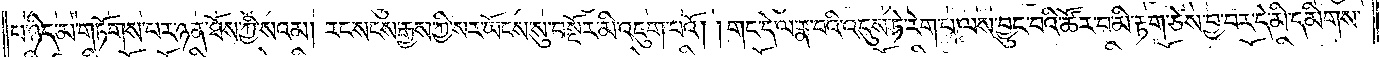པ་ཉིད་མ་གཏོགས་པར་ཉན་ཐོས་ཀྱི་སའམ། རང་སངས་རྒྱས་ཀྱི་སར་ཡོངས་སུ་བསྔོར་མི་འཇུག་པའོ། །གང་དེ་ལ་རྣ་བའི་འདུས་ཏེ་རེག་པ་ལས་བྱུང་བའི་ཚོར་བ་མི་རྟག་ཅེས་བྱ་བར་དེ་མི་དམིགས་
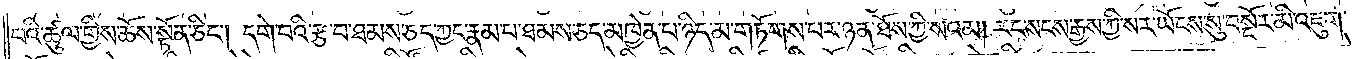པའི་ཚུལ་གྱིས་ཆོས་སྟོན་ཅིང༌། དགེ་བའི་རྩ་བ་ཐམས་ཅད་ཀྱང་རྣམ་པ་ཐམས་ཅད་མཁྱེན་པ་ཉིད་མ་གཏོགས་པར་ཉན་ཐོས་ཀྱི་སའམ། རང་སངས་རྒྱས་ཀྱི་སར་ཡོངས་སུ་བསྔོར་མི་འཇུག་
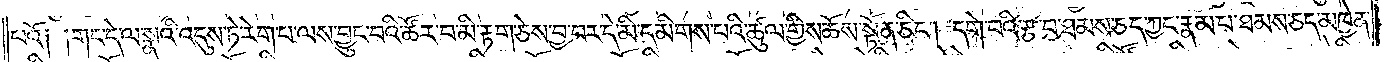པའོ༑ ༑གང་དེ་ལ་སྣའི་འདུས་ཏེ་རེག་པ་ལས་བྱུང་བའི་ཚོར་བ་མི་རྟག་ཅེས་བྱ་བར་དེ་མི་དམིགས་པའི་ཚུལ་གྱིས་ཆོས་སྟོན་ཅིང༌། དགེ་བའི་རྩ་བ་ཐམས་ཅད་ཀྱང་རྣམ་པ་ཐམས་ཅད་མཁྱེན
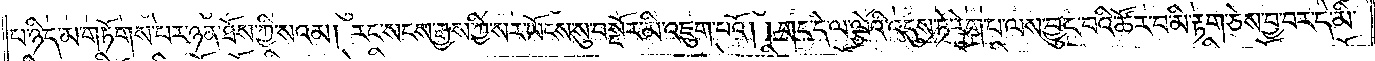པ་ཉིད་མ་གཏོགས་པར་ཉན་ཐོས་ཀྱི་སའམ། རང་སངས་རྒྱས་ཀྱི་སར་ཡོངས་སུ་བསྔོར་མི་འཇུག་པའོ། །གང་དེ་ལ་ལྕེའི་འདུས་ཏེ་རེག་པ་ལས་བྱུང་བའི་ཚོར་བ་མི་རྟག་ཅེས་བྱ་བར་དེ་མི་
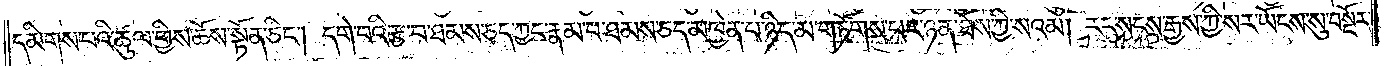དམིགས་པའི་ཚུལ་གྱིས་ཆོས་སྟོན་ཅིང༌། དགེ་བའི་རྩ་བ་ཐམས་ཅད་ཀྱང་རྣམ་པ་ཐམས་ཅད་མཁྱེན་པ་ཉིད་མ་གཏོགས་པར་ཉན་ཐོས་ཀྱི་སའམ། རང་སངས་རྒྱས་ཀྱི་སར་ཡོངས་སུ་བསྔོར་
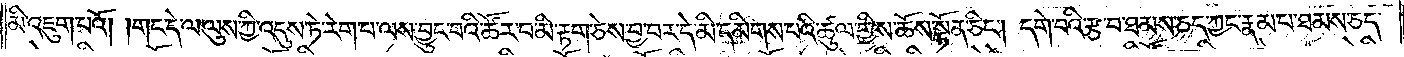མི་འཇུག་པའོ། །གང་དེ་ལ་ལུས་ཀྱི་འདུས་ཏེ་རེག་པ་ལས་བྱུང་བའི་ཚོར་བ་མི་རྟག་ཅེས་བྱ་བར་དེ་མི་དམིགས་པའི་ཚུལ་གྱིས་ཆོས་སྟོན་ཅིང༌། དགེ་བའི་རྩ་བ་ཐམས་ཅད་ཀྱང་རྣམ་པ་ཐམས་ཅད་
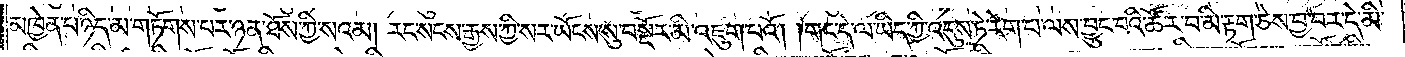མཁྱེན་པ་ཉིད་མ་གཏོགས་པར་ཉན་ཐོས་ཀྱི་སའམ། རང་སངས་རྒྱས་ཀྱི་སར་ཡོངས་སུ་བསྔོར་མི་འཇུག་པའོ། །གང་དེ་ལ་ཡིད་ཀྱི་འདུས་ཏེ་རེག་པ་ལས་བྱུང་བའི་ཚོར་བ་མི་རྟག་ཅེས་བྱ་བར་དེ་མི་
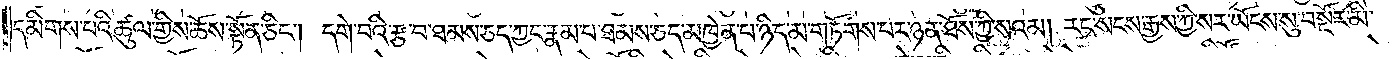དམིགས་པའི་ཚུལ་གྱིས་ཆོས་སྟོན་ཅིང༌། དགེ་བའི་རྩ་བ་ཐམས་ཅད་ཀྱང་རྣམ་པ་ཐམས་ཅད་མཁྱེན་པ་ཉིད་མ་གཏོགས་པར་ཉན་ཐོས་ཀྱི་སའམ། རང་སངས་རྒྱས་ཀྱི་སར་ཡོངས་སུ་བསྔོར་མི་
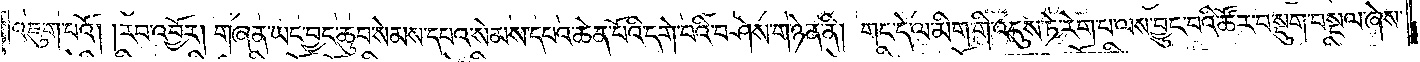འཇུག་པའོ། །རབ་འབྱོར། གཞན་ཡང་བྱང་ཆུབ་སེམས་དཔའ་སེམས་དཔའ་ཆེན་པོའི་དགེ་བའི་བཤེས་གཉེན་ནི། གང་དེ་ལ་མིག་གི་འདུས་ཏེ་རེག་པ་ལས་བྱུང་བའི་ཚོར་བ་སྡུག་བསྔལ་ཞེས་
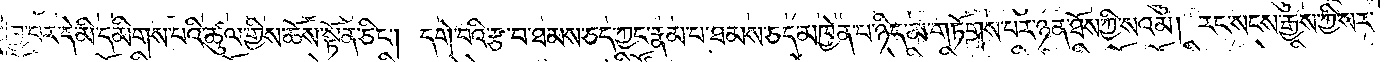བྱ་བར་དེ་མི་དམིགས་པའི་ཚུལ་གྱིས་ཆོས་སྟོན་ཅིང༌། དགེ་བའི་རྩ་བ་ཐམས་ཅད་ཀྱང་རྣམ་པ་ཐམས་ཅད་མཁྱེན་པ་ཉིད་མ་གཏོགས་པར་ཉན་ཐོས་ཀྱི་སའམ། རང་སངས་རྒྱས་ཀྱི་སར་
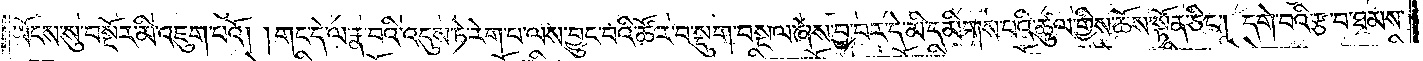ཡོངས་སུ་བསྔོར་མི་འཇུག་པའོ། །གང་དེ་ལ་རྣ་བའི་འདུས་ཏེ་རེག་པ་ལས་བྱུང་བའི་ཚོར་བ་སྡུག་བསྔལ་ཞེས་བྱ་བར་དེ་མི་དམིགས་པའི་ཚུལ་གྱིས་ཆོས་སྟོན་ཅིང༌། དགེ་བའི་རྩ་བ་ཐམས་
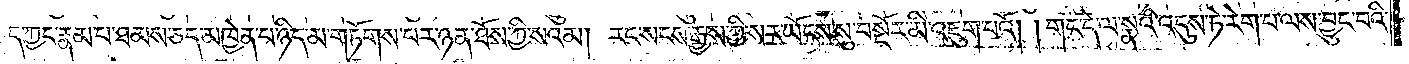ཀྱང་རྣམ་པ་ཐམས་ཅད་མཁྱེན་པ་ཉིད་མ་གཏོགས་པར་ཉན་ཐོས་ཀྱི་སའམ། རང་སངས་རྒྱས་ཀྱི་སར་ཡོངས་སུ་བསྔོར་མི་འཇུག་པའོ། །གང་དེ་ལ་སྣའི་འདུས་ཏེ་རེག་པ་ལས་བྱུང་བའི་
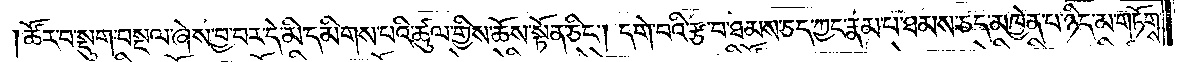ཚོར་བ་སྡུག་བསྔལ་ཞེས་བྱ་བར་དེ་མི་དམིགས་པའི་ཚུལ་གྱིས་ཆོས་སྟོན་ཅིང༌། དགེ་བའི་རྩ་བ་ཐམས་ཅད་ཀྱང་རྣམ་པ་ཐམས་ཅད་མཁྱེན་པ་ཉིད་མ་གཏོགས་
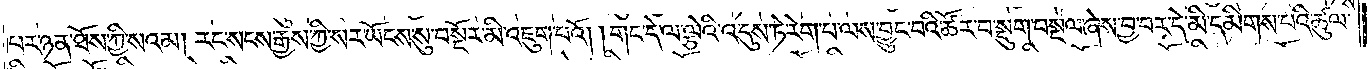པར་ཉན་ཐོས་ཀྱི་སའམ། རང་སངས་རྒྱས་ཀྱི་སར་ཡོངས་སུ་བསྔོར་མི་འཇུག་པའོ། །གང་དེ་ལ་ལྕེའི་འདུས་ཏེ་རེག་པ་ལས་བྱུང་བའི་ཚོར་བ་སྡུག་བསྔལ་ཞེས་བྱ་བར་དེ་མི་དམིགས་པའི་ཚུལ་
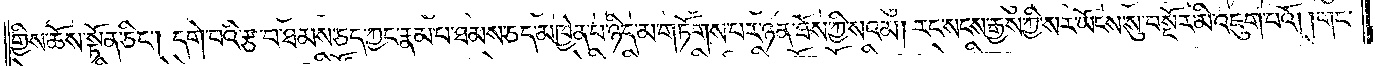གྱིས་ཆོས་སྟོན་ཅིང༌། དགེ་བའི་རྩ་བ་ཐམས་ཅད་ཀྱང་རྣམ་པ་ཐམས་ཅད་མཁྱེན་པ་ཉིད་མ་གཏོགས་པར་ཉན་ཐོས་ཀྱི་སའམ། རང་སངས་རྒྱས་ཀྱི་སར་ཡོངས་སུ་བསྔོར་མི་འཇུག་པའོ། །གང་
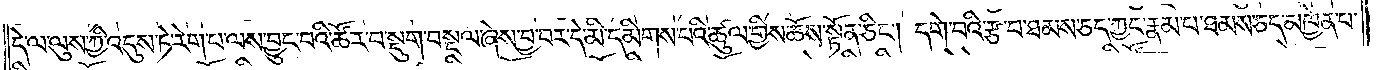དེ་ལ་ལུས་ཀྱི་འདུས་ཏེ་རེག་པ་ལས་བྱུང་བའི་ཚོར་བ་སྡུག་བསྔལ་ཞེས་བྱ་བར་དེ་མི་དམིགས་པའི་ཚུལ་གྱིས་ཆོས་སྟོན་ཅིང༌། དགེ་བའི་རྩ་བ་ཐམས་ཅད་ཀྱང་རྣམ་པ་ཐམས་ཅད་མཁྱེན་པ་
